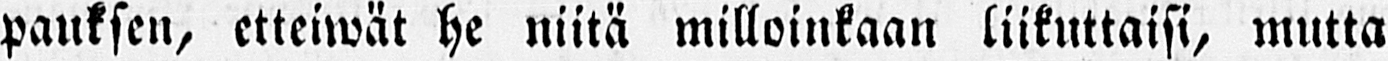pauksen, etteiwät he niitä milloinkaan liikuttaisi, mutta
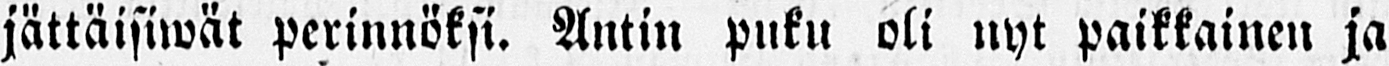jättäisiwät perinnöksi. Antin puku oli nyt paikkainen ja
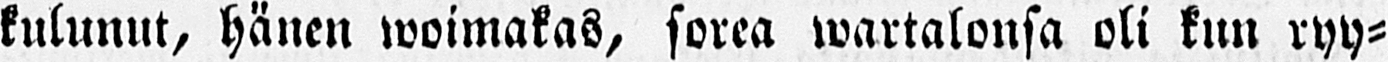kulunut, hänen woimakas, sorea wartalonsa oli kun ryy-
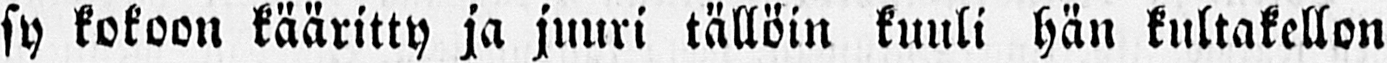sy kokoon kääritty ja juuri tällöin kuuli hän kultakellon
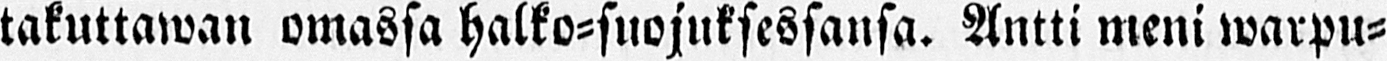takuttawan omassa halko-suojuksessansa. Antti meni warpu--
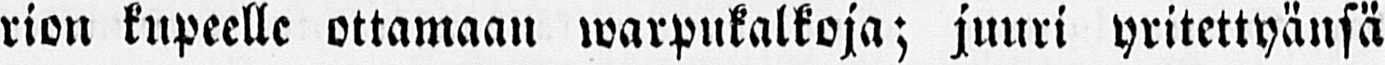rion kupeelle ottamaan warpukalkoja; juuri yritettyänsä
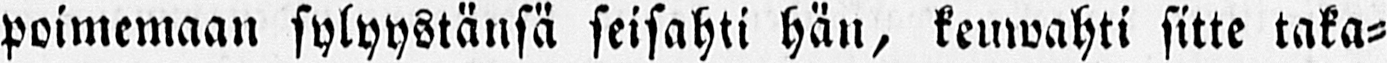poimemaan sylyystänsä seisahti hän, keuwahti sitte taka-
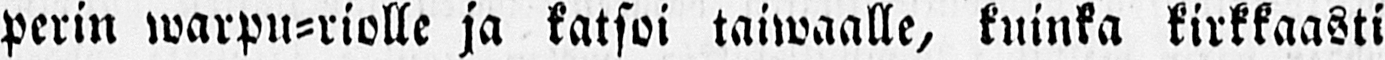perin warpu-riolle ja katsoi taiwaalle, kuinka kirkkaasti
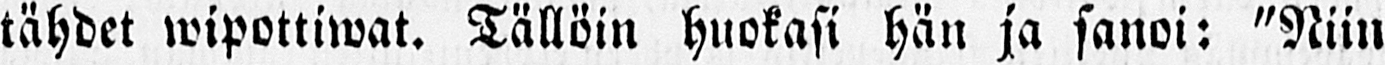tähdet wipottiwat. Tällöin huokasi hän ja sanoi: "Niin
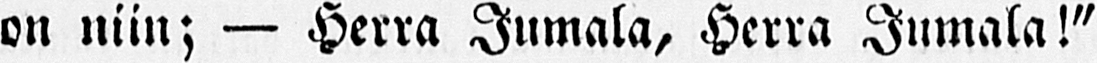on niin; — Herra Jumala, Herra Jumala!"
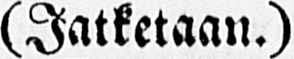(Jatketaan.)
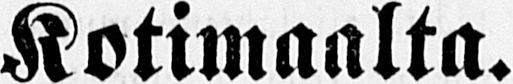Kotimaalta.
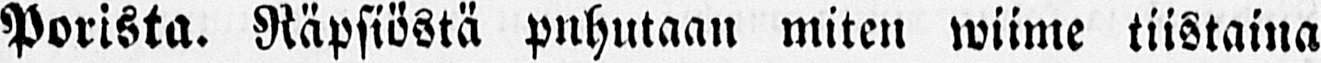Porista. Räpsiöstä puhutaan miten wiime tiistaina
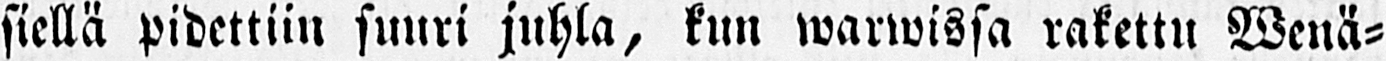siellä pidettiin suuri juhla, kun warwissa rakettu Wenä-
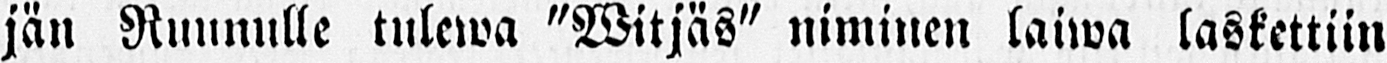jän Ruunulle tulewa "Witjäs" niminen laiwa laskettiin
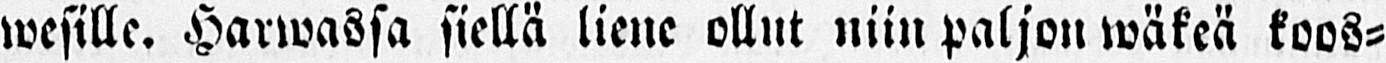wesille. Harwassa siellä liene ollut niin paljon wäkeä koos-
